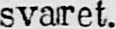svaret.
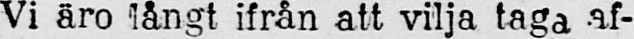Vi äro långt ifrån att vilja taga af-
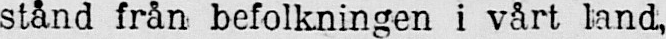stånd från befolkningen i vårt land,
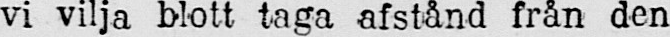vi vilja blott taga afstånd från den
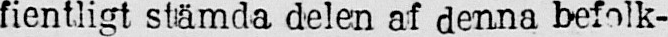fientligt stämda delen af denna befolk-
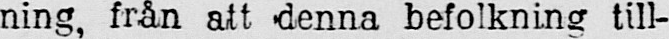ning, från att denna befolkning till-
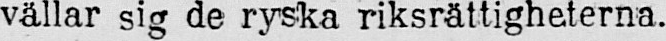vällar sig de ryska riksrättigheterna.
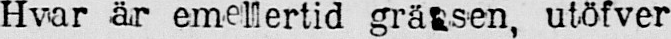Hvar är emellertid gräsen, utöfver
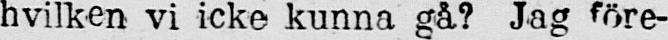hvilken vi icke kunna gå? Jag före-
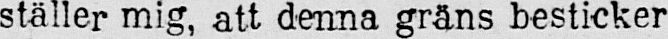ställer mig, att denna gräns besticker
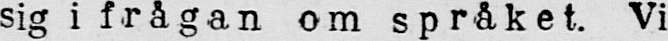sig i frågan om språket. Vi
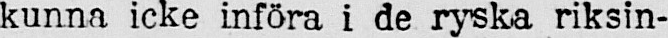kunna icke införa i de ryska riksin-
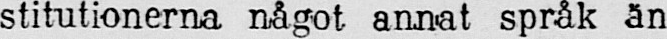stitutionerna något annat språk än
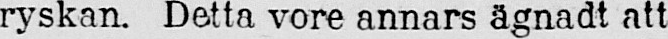ryskan. Detta vore annars ägnadt att
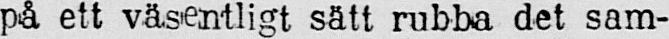på ett väsentligt sätt rubba det sam-
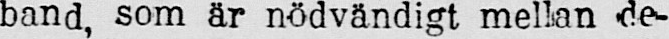band, som är nödvändigt mellan de-
